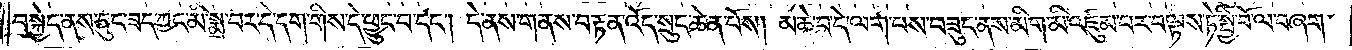བསྐྱེད་ནས་ཅུང་ཟད་ཀྱང་མི་སྨྲ་བར་དེ་དག་གིས་དེ་ཕྱུང་བ་དང༌། དེ་ནས་གནས་བརྟན་འོད་སྲུང་ཆེན་པོས། མཆེ་བ་དེ་ལག་པ་ས་བཟུང་ནས་མིག་མི་འཛུམ་པར་བལྟས་ཏེ་སྤྱི་བོ་ལ་བཞག་
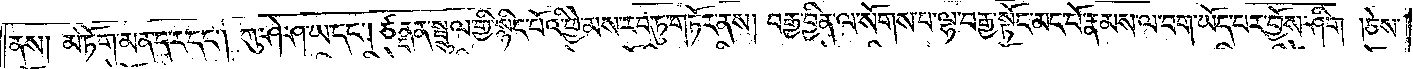ནས། མེ་ཏོག་མན་ད་ར་དང༌། ཀུ་ཤེ་ཤ་ཡ་དང༌། ཙནྡན་སྦྲུལ་གྱི་སྙིང་པོའི་ཕྱེ་མས་རབ་ཏུ་གཏོར་ནས། བརྒྱ་བྱིན་ལ་སོགས་པ་ལྷ་བརྒྱ་སྟོང་མང་པོ་རྣམས་ལ་བག་ཡོད་པར་བྱོས་ཤིག །ཅེས་
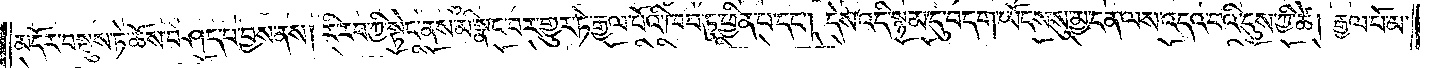མདོར་བསྡུས་ཏེ་ཆོས་བཤད་པ་བྱས་ནས། རི་རབ་ཀྱི་སྟེང་ནས་མི་སྣང་བར་གྱུར་ཏེ་རྒྱལ་པོའི་ཁབ་ཏུ་ཕྱིན་པ་དང༌། དེས་འདི་སྙམ་དུ་བདག་ཡོངས་སུ་མྱ་ངན་ལས་འདའ་བའི་དུས་ཀྱི་ཚེ། རྒྱལ་པོ་མ་
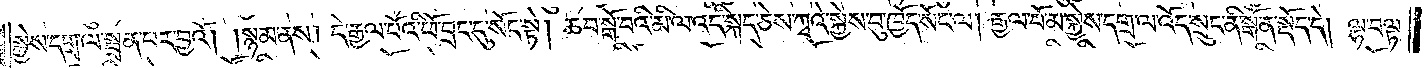སྐྱེས་དགྲ་ལ་སྦྲན་པར་བྱའོ། །སྙམ་ནས། དེ་རྒྱལ་པོའི་ཕོ་བྲང་དུ་སོང་སྟེ། ཆབ་སྒོ་བའི་མི་ལ་འདི་སྐད་ཅེས་ཀྭའི་སྐྱེས་བུ་ཁྱོད་སོང་ལ། རྒྱལ་པོ་མ་སྐྱེས་དགྲ་ལ་འོད་སྲུང་ནི་སྒོ་ན་སྡོད་དེ། ལྷ་བལྟ་
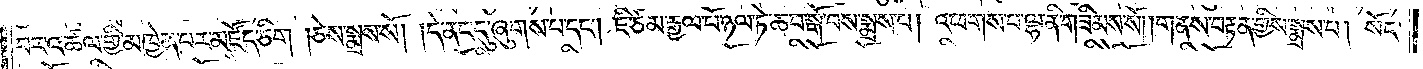བར་འཚལ་གྱི་མཁྱེན་པར་མཛོད་ཅིག །ཅེས་སྨྲས་སོ། །དེ་ནང་དུ་ཞུགས་པ་དང༌། ཇི་ཙམ་རྒྱལ་པོ་ཉལ་ཏེ་ཆབ་སྒོ་བས་སྨྲས་པ། འཕགས་པ་ལྷ་ནི་གཟིམས་སོ། །གནས་བརྟན་གྱིས་སྨྲས་པ། སོང་
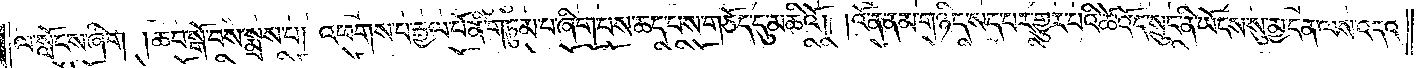ལ་སློངས་ཞིག །ཆབ་སྒོ་བས་སྨྲས་པ། འཕགས་པ་རྒྱལ་པོ་ནི་གཏུམ་བ་ཞིག་པས་ཆད་པས་གཅོད་དུ་མཆིའོ། །འོ་ན་ནམ་གཉིད་སད་པར་གྱུར་པའི་ཚེ་འོད་སྲུང་ནི་ཡོངས་སུ་མྱ་ངན་ལས་འདའ་
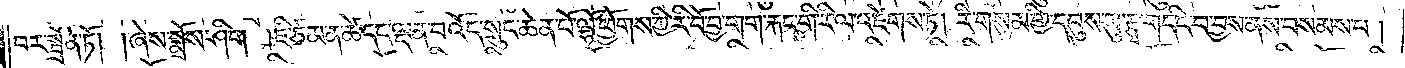བར་སྦྲོན་ཏོ། །ཞེས་སྨྲོས་ཤིག །ཇི་ཙམ་ན་ཚེ་དང་ལྡན་པ་འོད་སྲུང་ཆེན་པོ་ལྷོ་ཕྱོགས་ཀྱི་རི་བོ་བྱ་གག་རྐང་གི་རི་ལ་འཛེགས་ཏེ། རི་གསུམ་གྱི་དབུས་སུ་རྩྭ་གདིང་བ་བྱས་ནས་བསམས་པ།
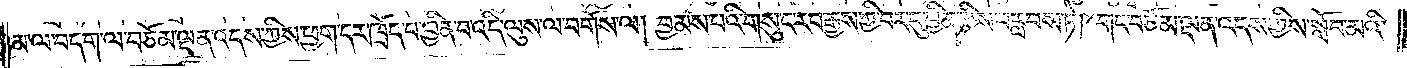མ་ལ་བདག་ལ་བཅོམ་ལྡན་འདས་ཀྱིས་ཕྱག་དར་ཁྲོད་པ་བྱིན་བ་འདི་ལུས་ལ་བགོས་ལ། བྱམས་པའི་གསུང་རབ་རྒྱས་ཀྱི་བར་དུ་བྱིན་གྱིས་བརླབས་ཏེ། གང་བཅོམ་ལྡན་འདས་ཀྱིས་སློབ་མའི་
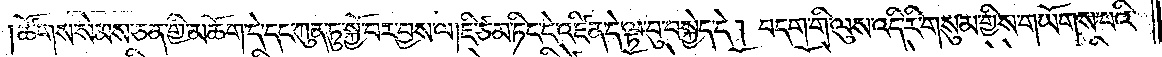།ཚོགས་སེམས་ཅན་གྱི་མཆོག་དེ་དང་ཀུན་ཏུ་སྐྱོ་བར་བྱས་ལ།ཇི་ཙམ་ཏིང་ངེ་འཛིན་དེ་ལྟ་བུ་བསྐྱེད་དེ། བདག་གི་ལུས་འདི་རིགས་གསུམ་གྱིས་གཡོགས་པའི་
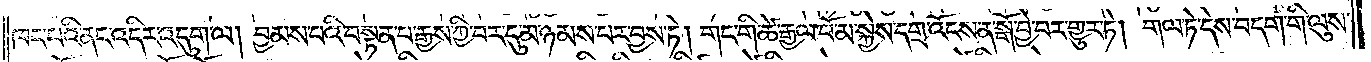ཁང་པའི་ནང་འདིར་འདུག་ལ། བྱམས་པའི་བསྟན་པ་རྒྱས་ཀྱི་བར་དུ་མ་ཉམས་པར་བྱས་ཏེ། གང་གི་ཚེ་རྒྱལ་པོ་མ་སྐྱེས་དགྲ་འོངས་ན་སྒོ་བྱེ་བར་གྱུར་ཏེ། གལ་ཏེ་དེས་བདག་གི་ལུས་
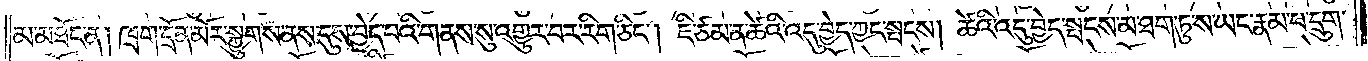མ་མཐོང་ན། ཁྲག་དྲོན་མོར་སྐྱུགས་ནས་དུས་བྱེད་པའི་གནས་སུ་འགྱུར་བར་རིག་ཅིང༌། ཇི་ཙམ་ན་ཚེའི་འདུ་བྱེད་ཀྱང་སྤངས། ཚེའི་འདུ་བྱེད་སྤངས་མ་ཐག་ཏུ་ས་ཡང་རྣམ་པ་དྲུག་
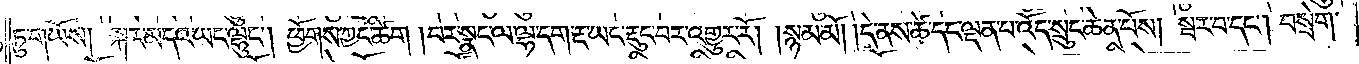ཏུ་གཡོས། སྐར་མདའ་ཡང་ལྷུང༌། ཕྱོགས་ཀྱང་ཚིག །བར་སྣང་ལ་ལྷ་དག་རྔ་ཡང་རྡུང་བར་འགྱུར་རོ། །སྙམ་མོ། །དེ་ནས་ཚེ་དང་ལྡན་པ་འོད་སྲུང་ཆེན་པོས། སྦར་བ་དང༌། བསྲེག་
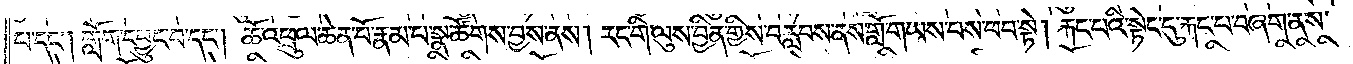པ་དང༌། གློག་དབྱུང་བ་དང༌། ཆོ་འཕྲུལ་ཆེན་པོ་རྣམ་པ་སྣ་ཚོགས་བྱས་ནས། རང་གི་ལུས་བྱིན་གྱིས་བརླབས་ནས་གློ་གཡས་པས་ཕབ་སྟེ། རྐང་པའི་སྟེང་དུ་རྐང་པ་བཞག་ནས་
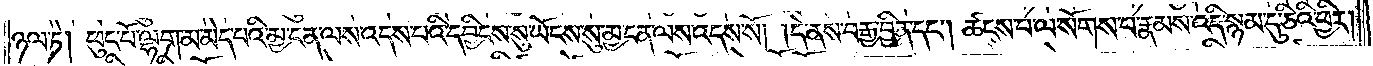ཉལ་ཏེ། ཕུང་པོ་ལྷག་མ་མེད་པའི་མྱ་ངན་ལས་འདས་པའི་དབྱིངས་སུ་ཡོངས་སུ་མྱ་ངན་ལས་འདས་སོ། །དེ་ནས་བརྒྱ་བྱིན་དང༌། ཚངས་པ་ལ་སོགས་པ་རྣམས་འདི་སྙམ་དུ་ཅིའི་ཕྱིར།
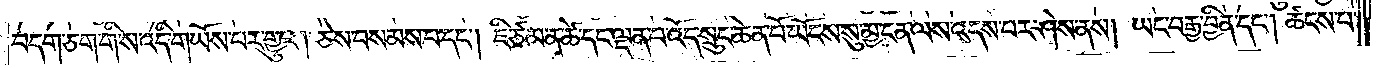བདག་ཅག་གི་ས་འདི་གཡོས་པར་གྱུར། ཅེས་བསམས་པ་དང༌། ཇི་ཙམ་ན་ཚེ་དང་ལྡན་པ་འོད་སྲུང་ཆེན་པོ་ཡོངས་སུ་མྱ་ངན་ལས་འདས་པ་ཤེས་ནས། ཡང་བརྒྱ་བྱིན་དང༌། ཚངས་པ་
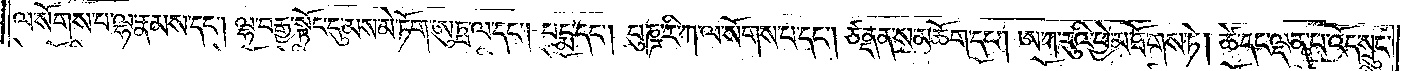ལ་སོགས་པ་ལྷ་རྣམས་དང༌། ལྷ་བརྒྱ་སྟོང་དུ་མས་མེ་ཏོག་ཨུཏྤ་ལ་དང༌། པདྨ་དང༌། པུཎྜ་རི་ཀ་ལ་སོགས་པ་དང༌། ཙནྡན་ས་མཆོག་དང༌། ཨ་ཀ་རུའི་ཕྱེ་མ་ཐོགས་ཏེ། ཚེ་དང་ལྡན་པ་འོད་སྲུང་
